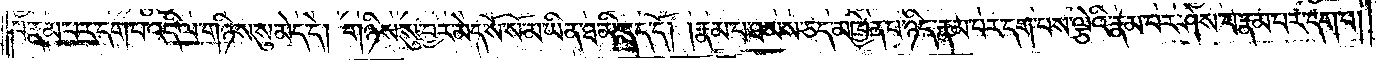པ་རྣམ་པར་དག་པ་འདི་ལ་གཉིས་སུ་མེད་དེ། གཉིས་སུ་བྱར་མེད་སོ་སོ་མ་ཡིན་ཐ་མི་དད་དོ། །རྣམ་པ་ཐམས་ཅད་མཁྱེན་པ་ཉིད་རྣམ་པར་དག་པས་ལྕེའི་རྣམ་པར་ཤེས་པ་རྣམ་པར་དག་པ།
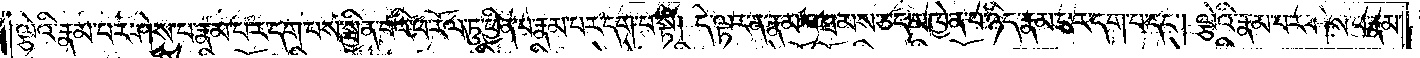ལྕེའི་རྣམ་པར་ཤེས་པ་རྣམ་པར་དག་པས་སྦྱིན་པའི་ཕ་རོལ་ཏུ་ཕྱིན་པ་རྣམ་པར་དག་པ་སྟེ། དེ་ལྟར་ན་རྣམ་པ་ཐམས་ཅད་མཁྱེན་པ་ཉིད་རྣམ་པར་དག་པ་དང༌། ལྕེའི་རྣམ་པར་ཤེས་པ་རྣམ་
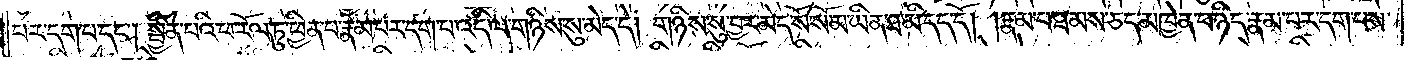པར་དག་པ་དང༌། སྦྱིན་པའི་ཕ་རོལ་ཏུ་ཕྱིན་པ་རྣམ་པར་དག་པ་འདི་ལ་གཉིས་སུ་མེད་དེ། གཉིས་སུ་བྱར་མེད་སོ་སོ་མ་ཡིན་ཐ་མི་དད་དོ། །རྣམ་པ་ཐམས་ཅད་མཁྱེན་པ་ཉིད་རྣམ་པར་དག་པས་
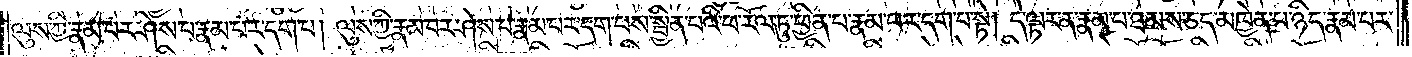ལུས་ཀྱི་རྣམ་པར་ཤེས་པ་རྣམ་པར་དག་པ། ལུས་ཀྱི་རྣམ་པར་ཤེས་པ་རྣམ་པར་དག་པས་སྦྱིན་པའི་ཕ་རོལ་ཏུ་ཕྱིན་པ་རྣམ་པར་དག་པ་སྟེ། དེ་ལྟར་ན་རྣམ་པ་ཐམས་ཅད་མཁྱེན་པ་ཉིད་རྣམ་པར་
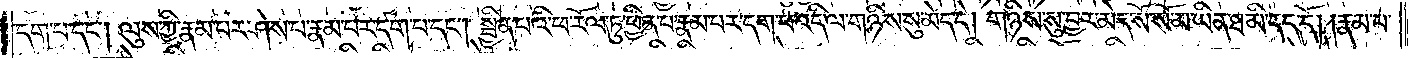དག་པ་དང༌། ལུས་ཀྱི་རྣམ་པར་ཤེས་པ་རྣམ་པར་དག་པ་དང༌། སྦྱིན་པའི་ཕ་རོལ་ཏུ་ཕྱིན་པ་རྣམ་པར་དག་པ་འདི་ལ་གཉིས་སུ་མེད་དེ། གཉིས་སུ་བྱར་མེད་སོ་སོ་མ་ཡིན་ཐ་མི་དད་དོ། །རྣམ་པ་
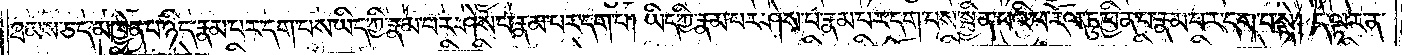ཐམས་ཅད་མཁྱེན་པ་ཉིད་རྣམ་པར་དག་པས་ཡིད་ཀྱི་རྣམ་པར་ཤེས་པ་རྣམ་པར་དག་པ། ཡིད་ཀྱི་རྣམ་པར་ཤེས་པ་རྣམ་པར་དག་པས་སྦྱིན་པའི་ཕ་རོལ་ཏུ་ཕྱིན་པ་རྣམ་པར་དག་པ་སྟེ། དེ་ལྟར་ན་
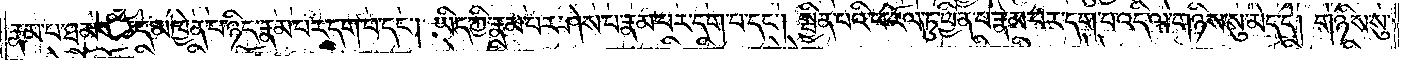རྣམ་པ་ཐམས་ཅད་མཁྱེན་པ་ཉིད་རྣམ་པར་དག་པ་དང༌། ཡིད་ཀྱི་རྣམ་པར་ཤེས་པ་རྣམ་པར་དག་པ་དང༌། སྦྱིན་པའི་ཕ་རོལ་ཏུ་ཕྱིན་པ་རྣམ་པར་དག་པ་འདི་ལ་གཉིས་སུ་མེད་དེ། གཉིས་སུ་
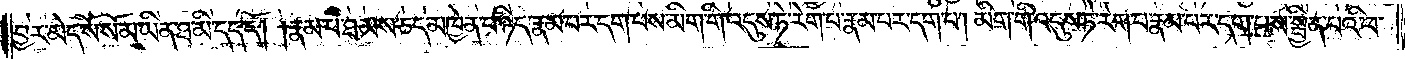བྱར་མེད་སོ་སོ་མ་ཡིན་ཐ་མི་དད་དོ། །རྣམ་པ་ཐམས་ཅད་མཁྱེན་པ་ཉིད་རྣམ་པར་དག་པས་མིག་གི་འདུས་ཏེ་རེག་པ་རྣམ་པར་དག་པ། མིག་གི་འདུས་ཏེ་རེག་པ་རྣམ་པར་དག་པས་སྦྱིན་པའི་ཕ་
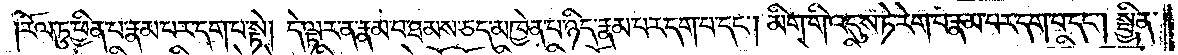རོལ་ཏུ་ཕྱིན་པ་རྣམ་པར་དག་པ་སྟེ། དེ་ལྟར་ན་རྣམ་པ་ཐམས་ཅད་མཁྱེན་པ་ཉིད་རྣམ་པར་དག་པ་དང༌། མིག་གི་འདུས་ཏེ་རེག་པ་རྣམ་པར་དག་པ་དང༌། སྦྱིན་
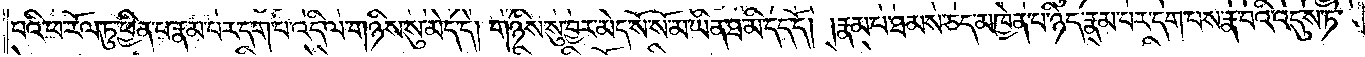པའི་ཕ་རོལ་ཏུ་ཕྱིན་པ་རྣམ་པར་དག་པ་འདི་ལ་གཉིས་སུ་མེད་དེ། གཉིས་སུ་བྱར་མེད་སོ་སོ་མ་ཡིན་ཐ་མི་དད་དོ། །རྣམ་པ་ཐམས་ཅད་མཁྱེན་པ་ཉིད་རྣམ་པར་དག་པས་རྣ་བའི་འདུས་ཏེ་
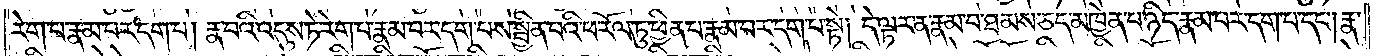རེག་པ་རྣམ་པར་དག་པ། རྣ་བའི་འདུས་ཏེ་རེག་པ་རྣམ་པར་དག་པས་སྦྱིན་པའི་ཕ་རོལ་ཏུ་ཕྱིན་པ་རྣམ་པར་དག་པ་སྟེ། དེ་ལྟར་ན་རྣམ་པ་ཐམས་ཅད་མཁྱེན་པ་ཉིད་རྣམ་པར་དག་པ་དང༌། རྣ་
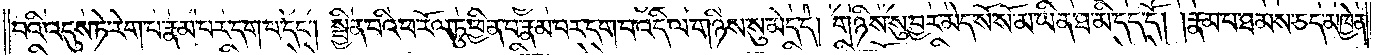བའི་འདུས་ཏེ་རེག་པ་རྣམ་པར་དག་པ་དང༌། སྦྱིན་པའི་ཕ་རོལ་ཏུ་ཕྱིན་པ་རྣམ་པར་དག་པ་འདི་ལ་གཉིས་སུ་མེད་དེ། གཉིས་སུ་བྱར་མེད་སོ་སོ་མ་ཡིན་ཐ་མི་དད་དོ། །རྣམ་པ་ཐམས་ཅད་མཁྱེན་
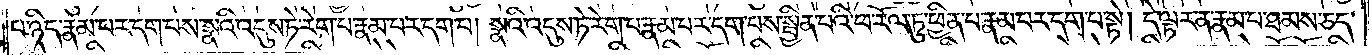པ་ཉིད་རྣམ་པར་དག་པས་སྣའི་འདུས་ཏེ་རེག་པ་རྣམ་པར་དག་པ། སྣའི་འདུས་ཏེ་རེག་པ་རྣམ་པར་དག་པས་སྦྱིན་པའི་ཕ་རོལ་ཏུ་ཕྱིན་པ་རྣམ་པར་དག་པ་སྟེ། དེ་ལྟར་ན་རྣམ་པ་ཐམས་ཅད་
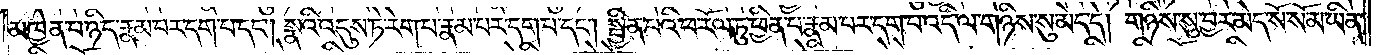མཁྱེན་པ་ཉིད་རྣམ་པར་དག་པ་དང༌། སྣའི་འདུས་ཏེ་རེག་པ་རྣམ་པར་དག་པ་དང༌། སྦྱིན་པའི་ཕ་རོལ་ཏུ་ཕྱིན་པ་རྣམ་པར་དག་པ་འདི་ལ་གཉིས་སུ་མེད་དེ། གཉིས་སུ་བྱར་མེད་སོ་སོ་མ་ཡིན་
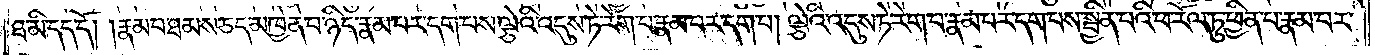ཐ་མི་དད་དོ། །རྣམ་པ་ཐམས་ཅད་མཁྱེན་པ་ཉིད་རྣམ་པར་དག་པས་ལྕེའི་འདུས་ཏེ་རེག་པ་རྣམ་པར་དག་པ། ལྕེའི་འདུས་ཏེ་རེག་པ་རྣམ་པར་དག་པས་སྦྱིན་པའི་ཕ་རོལ་ཏུ་ཕྱིན་པ་རྣམ་པར་
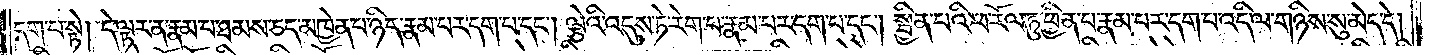དག་པ་སྟེ། དེ་ལྟར་ན་རྣམ་པ་ཐམས་ཅད་མཁྱེན་པ་ཉིད་རྣམ་པར་དག་པ་དང༌། ལྕེའི་འདུས་ཏེ་རེག་པ་རྣམ་པར་དག་པ་དང༌། སྦྱིན་པའི་ཕ་རོལ་ཏུ་ཕྱིན་པ་རྣམ་པར་དག་པ་འདི་ལ་གཉིས་སུ་མེད་དེ།
